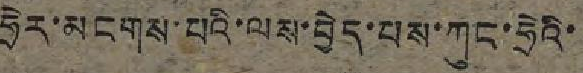ཧྲེར་མངགས་པའི་ལས་བྱེད་པས་ཀུང་ཧྲེའི་
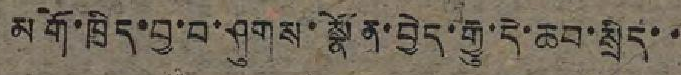མགོ་ཁྲིད་བྱས་བ་ཤུགས་སྣོན་བྱེད་རྒྱུ་དེ་ཆབ་སྲིད་་
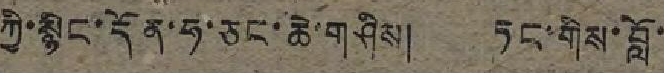ཀྱི་སྙིང་དོན་ཧ་ཅང་ཆེ་གཤིས། ཏང་གིས་བློ་
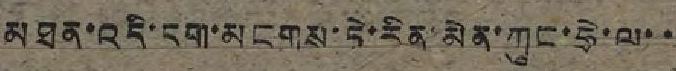མཐན་འདི་དག་མངགས་ཏེ་རིན་མེན་ཀུང་ཧྲེ་ལ་་
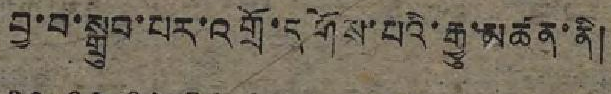བྱ་བ་སྒྲུབ་པར་འགྲོ་དགོས་པའི་རྒྱུ་མཚན་ནི།
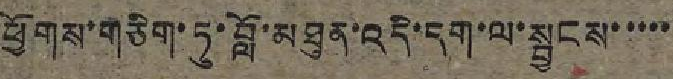ཕྱོགས་གཅིག་ཏུ་བློ་མཐུན་འདི་དག་ལ་སྦྱངས་་་་་
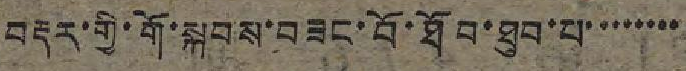བརྡར་གྱི་གོ་སྐབས་བཟང་བོ་ཐོབ་ཐུབ་པ་་་་་་་་
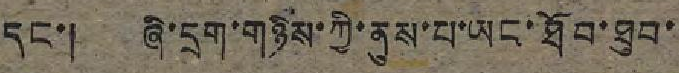དང་། ཞི་དྲག་གཉིས་ཀྱི་ནུས་པ་ཡང་ཐོབ་ཐུབ་
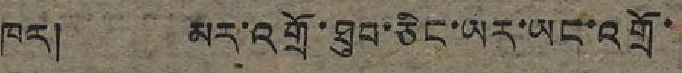ཁར། མར་འགྲོ་ཐུབ་ཅིང་ཡར་ཡང་འགྲོ་
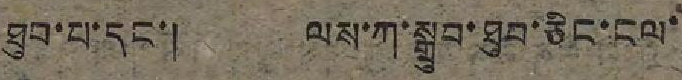ཐུབ་པ་དང་། ལས་ཀ་སྒྲུབ་ཐུབ་ཅིང་ངལ་
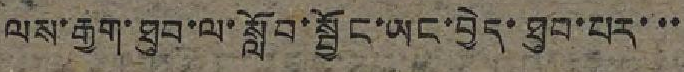ལས་རྒྱག་ཐུབ་ལ་སློབ་སྦྱོང་ཡང་བྱེད་ཐུབ་པར་་་
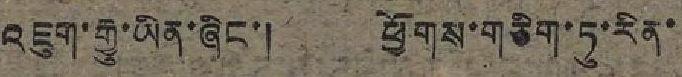འཇུག་རྒྱུ་ཡིན་ཞིང་། ཕྱོགས་གཅིག་ཏུ་རིན་
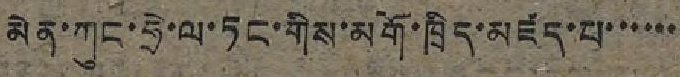མེན་ཀུང་ཧྲེ་ལ་ཏང་གིས་མགོ་ཁྲིད་མཛད་པ་་་་་་
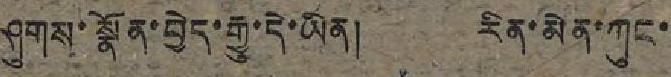ཤུགས་སྣོན་བྱེད་རྒྱུ་དེ་ཡིན། རིན་མེན་ཀུང་
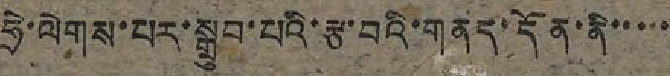ཧྲེ་ལེགས་པར་སྒྲུབ་པའི་རྩ་བའི་གནད་དོན་ནི་་་་་
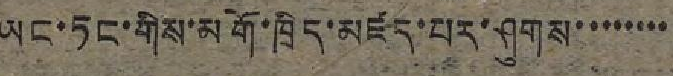ཡང་ཏང་གིས་མགོ་ཁྲིད་མཛད་པར་ཤུགས་་་་་་་་
